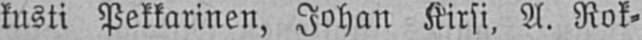kusti Pekkarinen, Johan Kirsi, A. Rok-
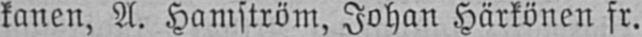kanen, A. Hamström, Johan Härkönen fr.
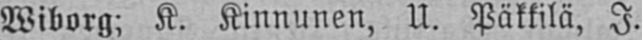Wiborg; K. Kinnunen, U. Päkkilä, I.
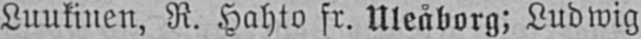Luukinen, R. Hahto fr. Uleåborg; Ludwig
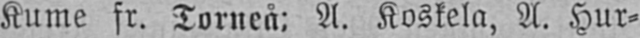Kume fr. Torneå; A. Koskela, A. Hur-
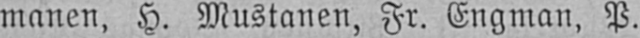manen, H. Mustanen, Fr. Engman, P.
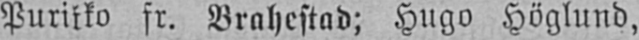Purikko fr. Brahestad; Hugo Höglund,
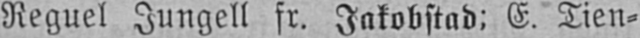Reguel Jungell fr. Jakobstad; E. Tien-
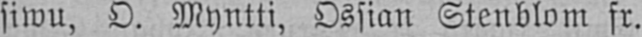siwu, O. Myntti, Ossian Stenblom fr.
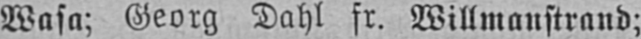Wasa; Georg Dahl fr. Willmanstrand;
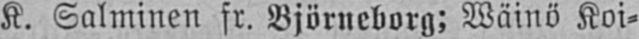K. Salminen fr. Björneborg: Wäinö Koi-
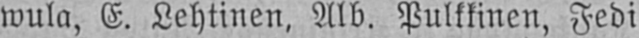wula, E. Lehtinen, Alb. Pulkkinen, Fedi
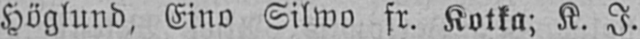Höglund, Eino Silwo fr. Kotka; K. I.
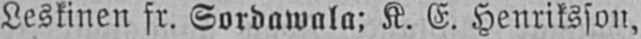Leskinen fr. Sordawala; K. E. Henriksson,
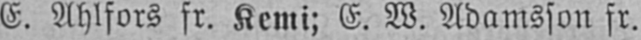E. Ahlfors fr. Kemi; E. W. Adamsson fr.
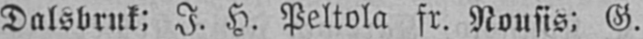Dalsbruk; I. H. Peltola fr. Nousis: G.
